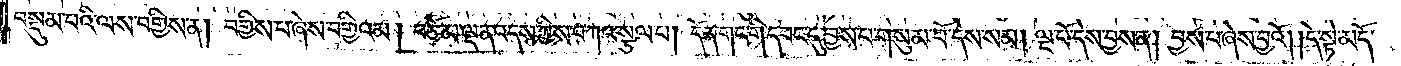བསྡུམ་པའི་ལས་བགྱིས་ན། བགྱིས་པ་ཞེས་བགྱིའམ། བཅོམ་ལྡན་འདས་ཀྱིས་བཀའ་སྩལ་པ། དོན་གང་གི་དབང་དུ་བྱས་པ་གསུམ་པོ་དེས་སམ། ལྔ་པོ་དེས་བྱས་ན། བྱས་པ་ཞེས་བྱའོ། །དེ་སྟེ་མདོ་
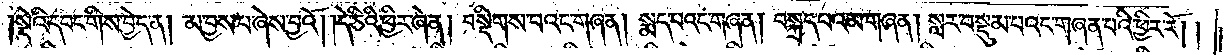སྡེའི་དབང་གིས་བྱེད་ན། མ་བྱས་པ་ཞེས་བྱའོ། །དེ་ཅིའི་ཕྱིར་ཞེ་ན། བསྡིགས་པའང་གཞན། སྨད་པའང་གཞན། བསྐྲད་པའམ་གཞན། སླར་བསྡུམ་པའང་གཞན་པའི་ཕྱིར་རོ། །
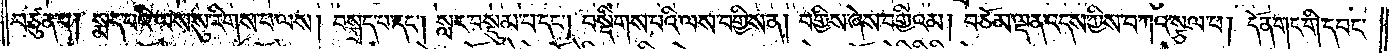བཙུན་པ། སྨད་པའི་ལས་སུ་རིགས་པ་ལས། བསྐྲད་པ་དང༌། སླར་བསྡུམ་པ་དང༌། བསྡིགས་པའི་ལས་བགྱིས་ན། བགྱིས་ཞེས་བགྱིའམ། བཅོམ་ལྡན་འདས་ཀྱིས་བཀའ་སྩལ་པ། དོན་གང་གི་དབང་
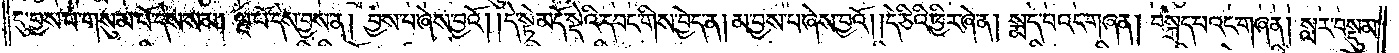དུ་བྱས་པ་གསུམ་པོ་དེས་སམ། ལྔ་པོ་དེས་བྱས་ན། བྱས་པ་ཞེས་བྱའོ། །དེ་སྟེ་མདོ་སྡེའི་དབང་གིས་བྱེད་ན། མ་བྱས་པ་ཞེས་བྱའོ། །དེ་ཅིའི་ཕྱིར་ཞེ་ན། སྨད་པའང་གཞན། བསྐྲད་པའང་གཞན། སླར་བསྡུམ་
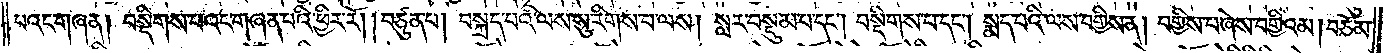པའང་གཞན། བསྡིགས་པའང་གཞན་པའི་ཕྱིར་རོ། །བཙུན་པ། བསྐྲད་པའི་ལས་སུ་རིགས་པ་ལས། སླར་བསྡུམ་པ་དང༌། བསྡིགས་པ་དང༌། སྨད་པའི་ལས་བགྱིས་ན། བགྱིས་པ་ཞེས་བགྱིའམ། བཅོམ་
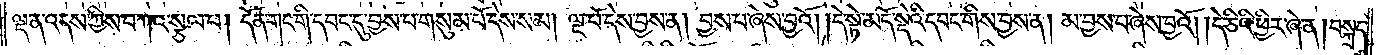ལྡན་འདས་ཀྱིས་བཀའ་སྩལ་པ། དོན་གང་གི་དབང་དུ་བྱས་པ་གསུམ་པོ་དེས་སམ། ལྔ་པོ་དེས་བྱས་ན། བྱས་པ་ཞེས་བྱའོ། །དེ་སྟེ་མདོ་སྡེའི་དབང་གིས་བྱས་ན། མ་བྱས་པ་ཞེས་བྱའོ། །དེ་ཅིའི་ཕྱིར་ཞེ་ན། བསྐྲད་
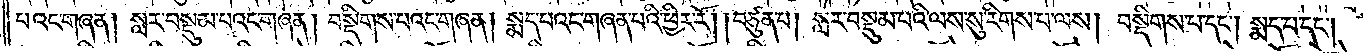པའང་གཞན། སླར་བསྡུམ་པའང་གཞན། བསྡིགས་པའང་གཞན། སྨད་པའང་གཞན་པའི་ཕྱིར་རོ། །བཙུན་པ། སླར་བསྡུམ་པའི་ལས་སུ་རིགས་པ་ལས། བསྡིགས་པ་དང༌། སྨད་པ་དང༌།
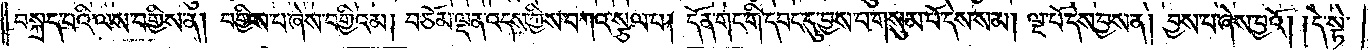བསྐྲད་པའི་ལས་བགྱིས་ན། བགྱིས་པ་ཞེས་བགྱིའམ། བཅོམ་ལྡན་འདས་ཀྱིས་བཀའ་སྩལ་པ། དོན་གང་གི་དབང་དུ་བྱས་པ་གསུམ་པོ་དེས་སམ། ལྔ་པོ་དེས་བྱས་ན། བྱས་པ་ཞེས་བྱའོ། །དེ་སྟེ་
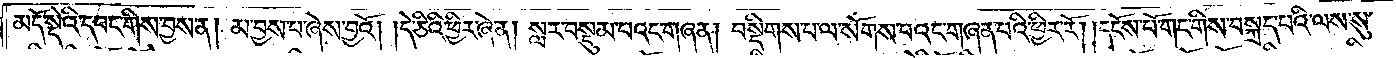མདོ་སྡེའི་དབང་གིས་བྱས་ན། མ་བྱས་པ་ཞེས་བྱའོ། །དེ་ཅིའི་ཕྱིར་ཞེ་ན། སླར་བསྡུམ་པའང་གཞན། བསྡིགས་པ་ལ་སོགས་པའང་གཞན་པའི་ཕྱིར་རོ། །དངོས་པོ་གང་གིས་བསྐྲད་པའི་ལས་སུ་
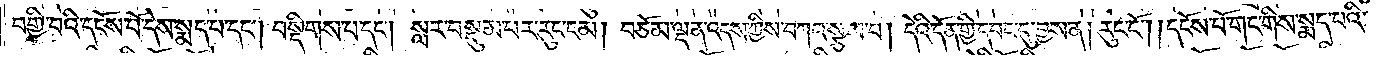བགྱི་བའི་དངོས་པོ་དེས་སྨད་པ་དང༌། བསྡིགས་པ་དང༌། སླར་བསྡུམ་པར་རུང་ངམ། བཅོམ་ལྡན་འདས་ཀྱིས་བཀའ་སྩལ་པ། དེའི་དོན་གྱི་དབང་དུ་བྱས་ན། རུང་ངོ༌། །དངོས་པོ་གང་གིས་སྨད་པའི་
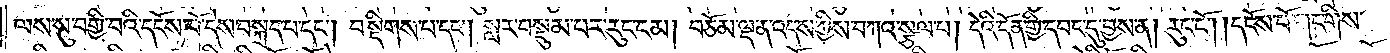ལས་སུ་བགྱི་བའི་དངོས་པོ་དེས་བསྐྲད་པ་དང༌། བསྡིགས་པ་དང༌། སླར་བསྡུམ་པར་རུང་ངམ། བཅོམ་ལྡན་འདས་ཀྱིས་བཀའ་སྩལ་པ། དེའི་དོན་གྱི་དབང་དུ་བྱས་ན། རུང་ངོ༌། །དངོས་པོ་གང་གིས་
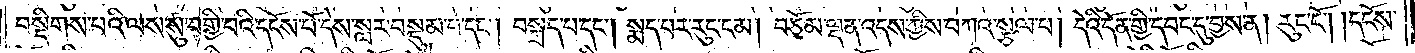བསྡིགས་པའི་ལས་སུ་བགྱི་བའི་དངོས་པོ་དེས་སླར་བསྡུམ་པ་དང༌། བསྐྲད་པ་དང༌། སྨད་པར་རུང་ངམ། བཅོམ་ལྡན་འདས་ཀྱིས་བཀའ་སྩལ་པ། དེའི་དོན་གྱི་དབང་དུ་བྱས་ན། རུང་ངོ༌། །དངོས་
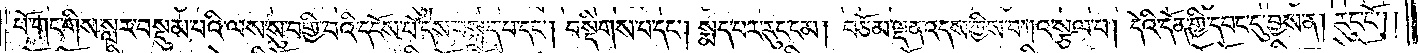པོ་གང་གིས་སླར་བསྡུམ་པའི་ལས་སུ་བགྱི་བའི་དངོས་པོ་དེས་བསྐྲད་པ་དང༌། བསྡིགས་པ་དང༌། སྨད་པར་རུང་ངམ། བཅོམ་ལྡན་འདས་ཀྱིས་བཀའ་སྩལ་པ། དེའི་དོན་གྱི་དབང་དུ་བྱས་ན། རུང་ངོ༌། །
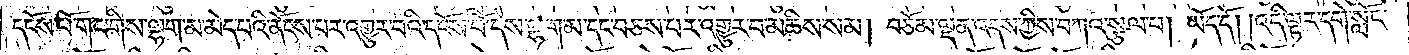དངོས་པོ་གང་གིས་ལྷག་མ་མེད་པའི་ནོངས་པར་འགྱུར་བའི་དངོས་པོ་དེས་ལྷག་མ་དང་བཅས་པར་འགྱུར་བ་མཆིས་སམ། བཅོམ་ལྡན་འདས་ཀྱིས་བཀའ་སྩལ་པ། ཡོད་དོ། །འདི་ལྟར་དགེ་སློང་
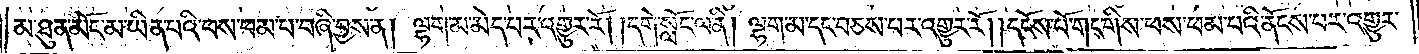མཐུན་མོང་མ་ཡིན་པའི་ཕས་ཕམ་པ་བཞི་བྱས་ན། ལྷག་མ་མེད་པར་འགྱུར་རོ། །དགེ་སློང་ལ་ནི། ལྷག་མ་དང་བཅས་པར་འགྱུར་རོ། །དངོས་པོ་གང་གིས་ཕས་ཕམ་པའི་ནོངས་པར་འགྱུར་
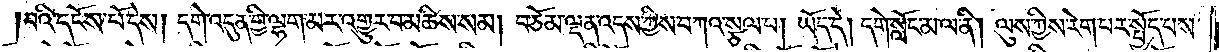བའི་དངོས་པོ་དེས། དགེ་འདུན་གྱི་ལྷག་མར་འགྱུར་བ་མཆིས་སམ། བཅོམ་ལྡན་འདས་ཀྱིས་བཀའ་སྩལ་པ། ཡོད་དེ། དགེ་སློང་མ་ལ་ནི། ལུས་ཀྱིས་རེག་པར་སྤྱོད་པས་
